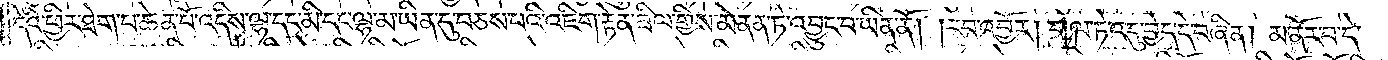དེའི་ཕྱིར་ཐེག་པ་ཆེན་པོ་འདིས་ལྷ་དང་མི་དང་ལྷ་མ་ཡིན་དུ་བཅས་པའི་འཇིག་རྟེན་ཟིལ་གྱིས་མནན་ཏེ་འབྱུང་བ་ཡིན་ནོ། །རབ་འབྱོར། གལ་ཏེ་འདུ་བྱེད་དེ་བཞིན། མ་ནོར་བ་དེ་
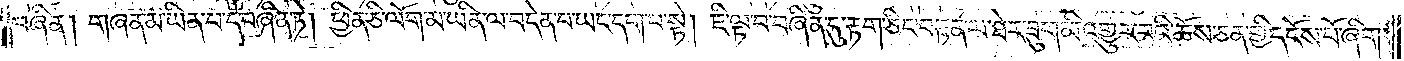བཞིན། གཞན་མ་ཡིན་པ་དེ་བཞིན་ཏེ། ཕྱིན་ཅི་ལོག་མ་ཡིན་ལ་བདེན་པ་ཡང་དག་པ་སྟེ། ཇི་ལྟ་བ་བཞིན་དུ་རྟག་ཅིང་བརྟན་ལ་ཐེར་ཟུག་མི་འགྱུར་བའི་ཆོས་ཅན་གྱི་དངོས་པོ་ཞིག་
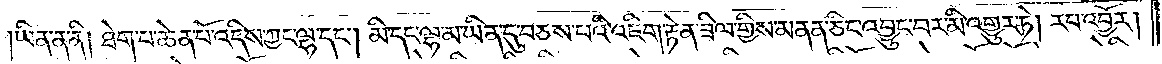ཡིན་ན་ནི། ཐེག་པ་ཆེན་པོ་འདིས་ཀྱང་ལྷ་དང༌། མི་དང་ལྷ་མ་ཡིན་དུ་བཅས་པའི་འཇིག་རྟེན་ཟིལ་གྱིས་མནན་ཅིང་འབྱུང་བར་མི་འགྱུར་ཏེ། རབ་འབྱོར།
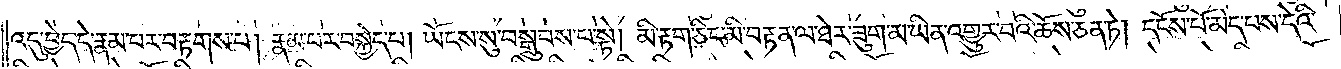འདུ་བྱེད་དེ་རྣམ་པར་བརྟགས་པ། རྣམ་པར་བསྐྱེད་པ། ཡོངས་སུ་བསྒྲུབས་པ་སྟེ། མི་རྟག་ཅིང་མི་བརྟན་ལ་ཐེར་ཟུག་མ་ཡིན་འགྱུར་བའི་ཆོས་ཅན་ཏེ། དངོས་པོ་མེད་པས་དེའི་
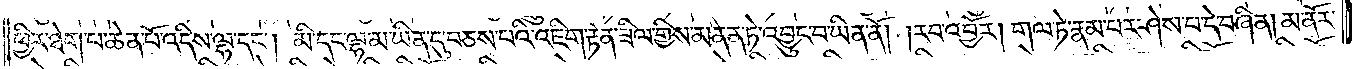ཕྱིར་ཐེག་པ་ཆེན་པོ་འདིས་ལྷ་དང༌། མི་དང་ལྷ་མ་ཡིན་དུ་བཅས་པའི་འཇིག་རྟེན་ཟིལ་གྱིས་མནན་ཏེ་འབྱུང་བ་ཡིན་ནོ། །རབ་འབྱོར། གལ་ཏེ་རྣམ་པར་ཤེས་པ་དེ་བཞིན། མ་ནོར་
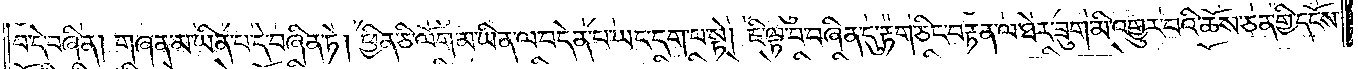བ་དེ་བཞིན། གཞན་མ་ཡིན་པ་དེ་བཞིན་ཏེ། ཕྱིན་ཅི་ལོག་མ་ཡིན་ལ་བདེན་པ་ཡང་དག་པ་སྟེ། ཇི་ལྟ་བ་བཞིན་དུ་རྟག་ཅིང་བརྟན་ལ་ཐེར་ཟུག་མི་འགྱུར་བའི་ཆོས་ཅན་གྱི་དངོས་
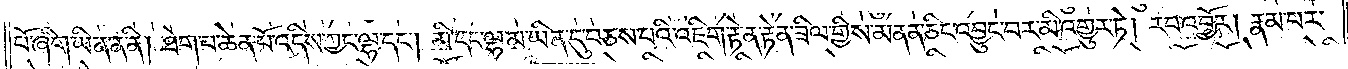པོ་ཞིག་ཡིན་ན་ནི། ཐེག་པ་ཆེན་པོ་འདིས་ཀྱང་ལྷ་དང༌། མི་དང་ལྷ་མ་ཡིན་དུ་བཅས་པའི་འཇིག་རྟེན་ཟིལ་གྱིས་མནན་ཅིང་འབྱུང་བར་མི་འགྱུར་ཏེ། རབ་འབྱོར། རྣམ་པར་
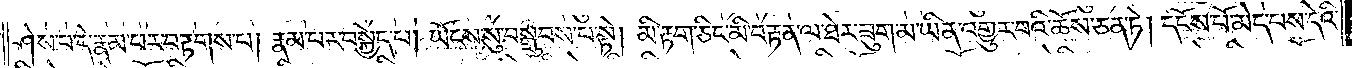ཤེས་པ་དེ་རྣམ་པར་བརྟགས་པ། རྣམ་པར་བསྐྱེད་པ། ཡོངས་སུ་བསྒྲུབས་པ་སྟེ། མི་རྟག་ཅིང་མི་བརྟན་ལ་ཐེར་ཟུག་མ་ཡིན་འགྱུར་བའི་ཆོས་ཅན་ཏེ། དངོས་པོ་མེད་པས་དེའི་
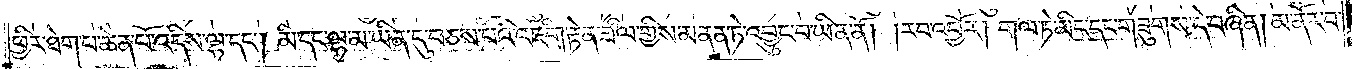ཕྱིར་ཐེག་པ་ཆེན་པོ་འདིས་ལྷ་དང༌། མི་དང་ལྷ་མ་ཡིན་དུ་བཅས་པའི་འཇིག་རྟེན་ཟིལ་གྱིས་མནན་ཏེ་འབྱུང་བ་ཡིན་ནོ། །རབ་འབྱོར། གལ་ཏེ་མིང་དང་གཟུགས་དེ་བཞིན། མ་ནོར་བ་
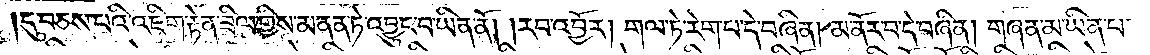དུ་བཅས་པའི་འཇིག་རྟེན་ཟིལ་གྱིས་མནན་ཏེ་འབྱུང་བ་ཡིན་ནོ། །རབ་འབྱོར། གལ་ཏེ་རེག་པ་དེ་བཞིན། མ་ནོར་བ་དེ་བཞིན། གཞན་མ་ཡིན་པ་
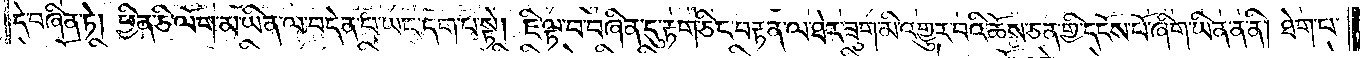དེ་བཞིན་ཏེ། ཕྱིན་ཅི་ལོག་མ་ཡིན་ལ་བདེན་པ་ཡང་དག་པ་སྟེ། ཇི་ལྟ་བ་བཞིན་དུ་རྟག་ཅིང་བརྟན་ལ་ཐེར་ཟུག་མི་འགྱུར་བའི་ཆོས་ཅན་གྱི་དངོས་པོ་ཞིག་ཡིན་ན་ནི། ཐེག་པ་
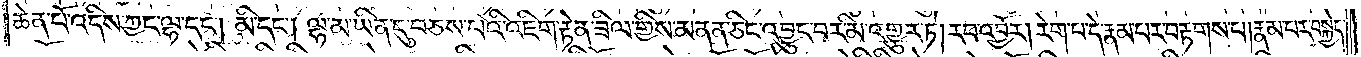ཆེན་པོ་འདིས་ཀྱང་ལྷ་དང༌། མི་དང༌། ལྷ་མ་ཡིན་དུ་བཅས་པའི་འཇིག་རྟེན་ཟིལ་གྱིས་མནན་ཅིང་འབྱུང་བར་མི་འགྱུར་ཏེ། རབ་འབྱོར། རེག་པ་དེ་རྣམ་པར་བརྟགས་པ། རྣམ་པར་བསྐྱེད་
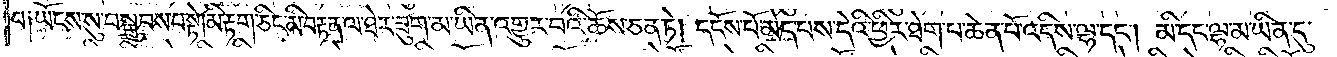པ། ཡོངས་སུ་བསྒྲུབས་པ་སྟེ།མི་རྟག་ཅིང་མི་བརྟན་ལ་ཐེར་ཟུག་མ་ཡིན་འགྱུར་བའི་ཆོས་ཅན་ཏེ། དངོས་པོ་མེད་པས་དེའི་ཕྱིར་ཐེག་པ་ཆེན་པོ་འདིས་ལྷ་དང༌། མི་དང་ལྷ་མ་ཡིན་དུ་
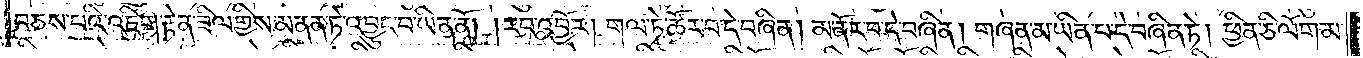བཅས་པའི་འཇིག་རྟེན་ཟིལ་གྱིས་མནན་ཏེ་འབྱུང་བ་ཡིན་ནོ། །རབ་འབྱོར། གལ་ཏེ་ཚོར་བ་དེ་བཞིན། མ་ནོར་བ་དེ་བཞིན། གཞན་མ་ཡིན་པ་དེ་བཞིན་ཏེ། ཕྱིན་ཅི་ལོག་མ་
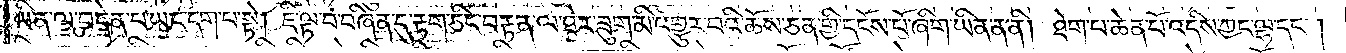ཡིན་ལ་བདེན་པ་ཡང་དག་པ་སྟེ། ཇི་ལྟ་བ་བཞིན་དུ་རྟག་ཅིང་བརྟན་ལ་ཐེར་ཟུག་མི་འགྱུར་བའི་ཆོས་ཅན་གྱི་དངོས་པོ་ཞིག་ཡིན་ན་ནི། ཐེག་པ་ཆེན་པོ་འདིས་ཀྱང་ལྷ་དང༌།
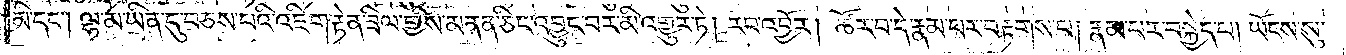མི་དང༌། ལྷ་མ་ཡིན་དུ་བཅས་པའི་འཇིག་རྟེན་ཟིལ་གྱིས་མནན་ཅིང་འབྱུང་བར་མི་འགྱུར་ཏེ། རབ་འབྱོར། ཚོར་བ་དེ་རྣམ་པར་བརྟགས་པ། རྣམ་པར་བསྐྱེད་པ། ཡོངས་སུ་
